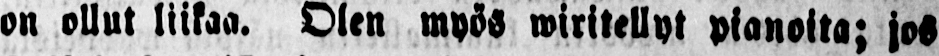on ollut liikaa. Olen myös wiritellyt pianoita; jos
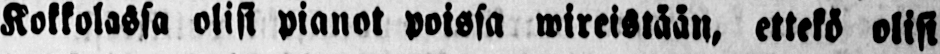Kokkolassa olisi pianot poissa wireistään, ettekö olisi
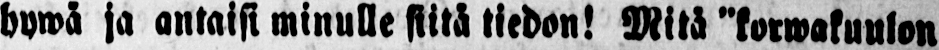hywä ja antaisi minulle siitä tiedon! Mitä "korwakuulon
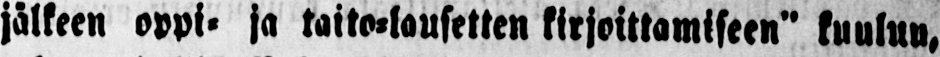jälkeen oppi- ja taito-lausetten kirjoittamiseen" kuuluu,
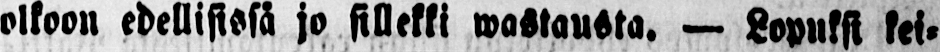olkoon edellisissä jo sillekki wastausta. — Lopuksi kei-
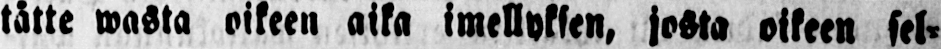tätte wasta oikeen aika imellyksen, josta oikeen sel-
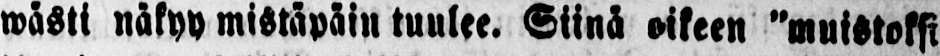wästi näkyy mistäpäin tuulee. Siinä oikeen "muistoksi
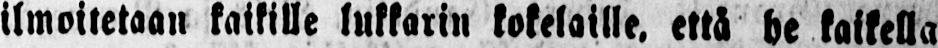ilmoitetaan kaikille lukkarin kokelaille, että he kaikella
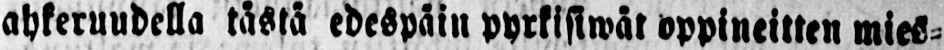ahkeruudella tästä edespäin pyrkisiwät oppineitten mies-
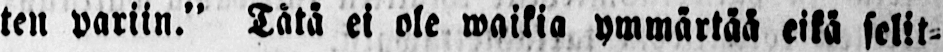ten pariin." Tätä ei ole waikia ymmärtää eikä selit-
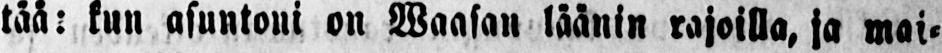tää: kun asuntoni on Waasan läänin rajoilla, ja mai-
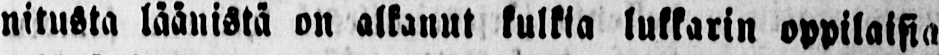nitusta läänistä on alkanut kulkia lukkarin oppilaista
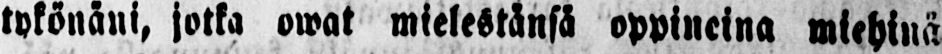tykönäni, jotka owat mielestänsä oppineina miehinä
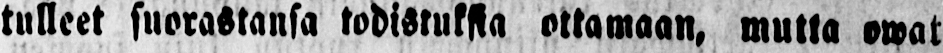tulleet suorastansa todistuksia ottamaan, mutta owat
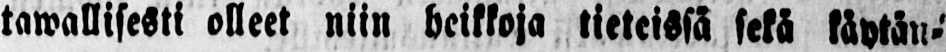tawallisesti olleet niin heikkoja tieteissä sekä käytän-
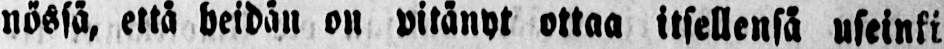nössä, että heidän on pitänyt ottaa itsellensä useinki
